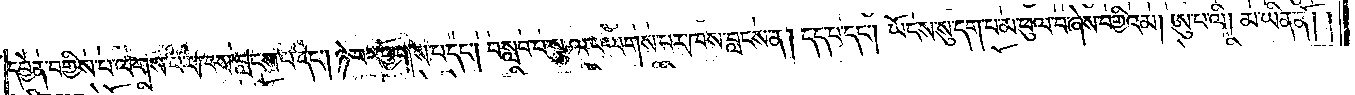དབྱེན་བགྱིས་པ་ལགས་པར་ཁས་བླངས་པ་དང༌། ཉེ་བར་ཕྱོགས་པ་དང༌། བསླབ་པ་སྩལ་པ་ལགས་པར་ཁས་བླངས་ན། དད་པ་དང༌། ཡོངས་སུ་དག་པ་མ་ཕུལ་བ་ཞེས་བགྱིའམ། ཨུ་པ་ལི། མ་ཡིན་ནོ། །
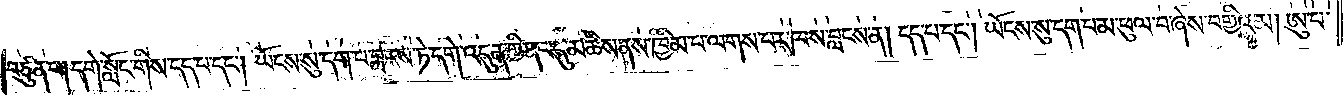བཙུན་པ། དགེ་སློང་གིས་དད་པ་དང༌། ཡོངས་སུ་དག་པ་བླངས་ཏེ་དགེ་འདུན་གྱི་ནང་དུ་མཆིས་ནས་ཁྱིམ་པ་ལགས་པར་ཁས་བླངས་ན། དད་པ་དང༌། ཡོངས་སུ་དག་པ་མ་ཕུལ་བ་ཞེས་བགྱིའམ། ཨུ་པ་
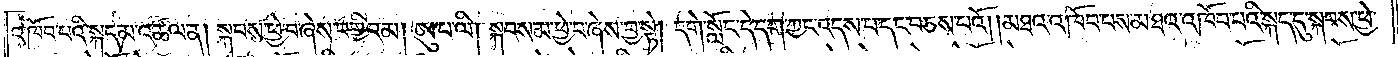འཁོབ་པའི་སྐད་མ་འཚལ་ན། སྐབས་ཕྱེ་བ་ཞེས་བགྱིའམ། ཨུ་པ་ལི། སྐབས་མ་ཕྱེ་བ་ཞེས་བྱ་སྟེ། དགེ་སློང་དེ་དག་ཀྱང་འདས་པ་དང་བཅས་པའོ། །མཐའ་འཁོབ་པས་མཐའ་འཁོབ་པའི་སྐད་དུ་སྐབས་ཕྱེ་
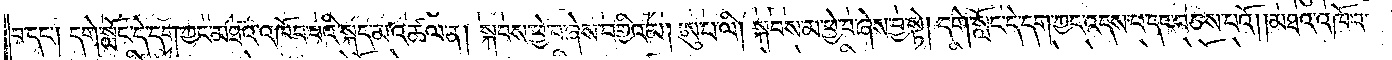བ་དང༌། དགེ་སློང་དེ་དག་ཀྱང་མཐའ་འཁོབ་པའི་སྐད་མ་འཚལ་ན། སྐབས་ཕྱེ་བ་ཞེས་བགྱིའམ། ཨུ་པ་ལི། སྐབས་མ་ཕྱེ་བ་ཞེས་བྱ་སྟེ། དགེ་སློང་དེ་དག་ཀྱང་འདས་པ་དང་བཅས་པའོ། །མཐའ་འཁོབ་
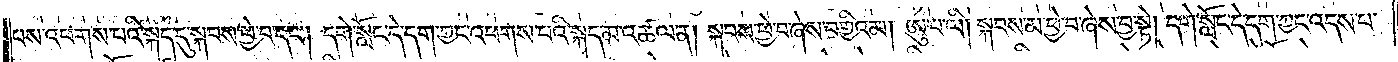པས་འཕགས་པའི་སྐད་དུ་སྐབས་ཕྱེ་བ་དང༌། དགེ་སློང་དེ་དག་ཀྱང་འཕགས་པའི་སྐད་མ་འཚལ་ན། སྐབས་ཕྱེ་བ་ཞེས་བགྱིའམ། ཨུ་པ་ལི། སྐབས་མ་ཕྱེ་བ་ཞེས་བྱ་སྟེ། དགེ་སློང་དེ་དག་ཀྱང་འདས་པ་
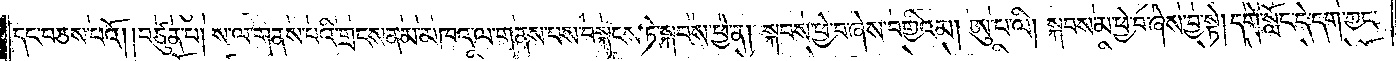དང་བཅས་པའོ། །བཙུན་པ། ས་ལ་གནས་པའི་གྲངས་ནམ་མཁའ་ལ་གནས་པས་བསྐངས་ཏེ་སྐབས་ཕྱེ་ན། སྐབས་ཕྱེ་བ་ཞེས་བགྱིའམ། ཨུ་པ་ལི། སྐབས་མ་ཕྱེ་བ་ཞེས་བྱ་སྟེ། དགེ་སློང་དེ་དག་ཀྱང་
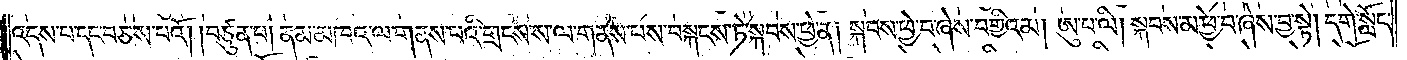འདས་པ་དང་བཅས་པའོ། །བཙུན་པ། ནམ་མཁའ་ལ་གནས་པའི་གྲངས་ལ་གནས་པས་བསྐངས་ཏེ་སྐབས་ཕྱེ་ན། སྐབས་ཕྱེ་བ་ཞེས་བགྱིའམ། ཨུ་པ་ལི། སྐབས་མ་ཕྱེ་བ་ཞེས་བྱ་སྟེ། དགེ་སློང་
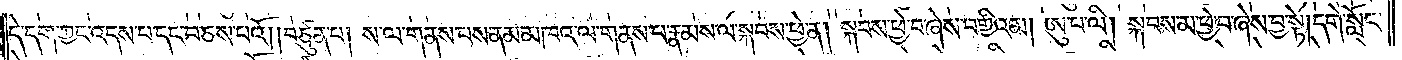དེ་དག་ཀྱང་འདས་པ་དང་བཅས་པའོ། །བཙུན་པ། ས་ལ་གནས་པས་ནམ་མཁའ་ལ་གནས་པ་རྣམས་ལ་སྐབས་ཕྱེ་ན། སྐབས་ཕྱེ་བ་ཞེས་བགྱིའམ། ཨུ་པ་ལི། སྐབས་མ་ཕྱེ་བ་ཞེས་བྱ་སྟེ། དགེ་སློང་
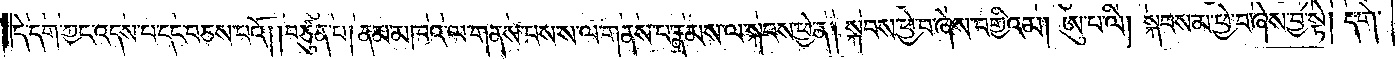དེ་དག་ཀྱང་འདས་པ་དང་བཅས་པའོ། །བཙུན་པ། ནམ་མཁའ་ལ་གནས་པས་ས་ལ་གནས་པ་རྣམས་ལ་སྐབས་ཕྱེ་ན། སྐབས་ཕྱེ་བ་ཞེས་བགྱིའམ། ཨུ་པ་ལི། སྐབས་མ་ཕྱེ་བ་ཞེས་བྱ་སྟེ། དགེ་
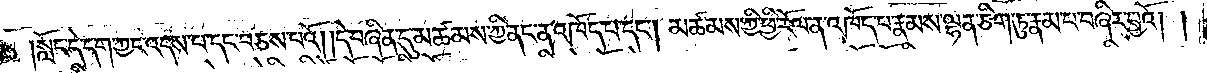།སློང་དེ་དག་ཀྱང་འདས་པ་དང་བཅས་པའོ། །དེ་བཞིན་དུ་མཚམས་ཀྱི་ནང་ན་འཁོད་པ་དང༌། མཚམས་ཀྱི་ཕྱི་རོལ་ན་འཁོད་པ་རྣམས་ལྷན་ཅིག་ཏུ་རྣམ་པ་བཞིར་བྱའོ། །
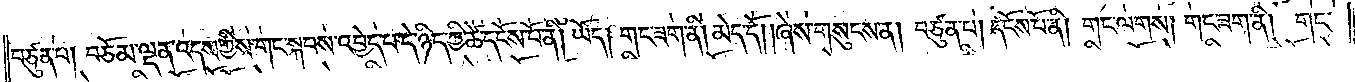བཙུན་པ། བཅོམ་ལྡན་འདས་ཀྱིས་གང་སྐབས་འབྱེད་པ་དེ་ཉིད་ཀྱི་ཚེ་དངོས་པོ་ནི། ཡོད། གང་ཟག་ནི། མེད་དོ། །ཞེས་གསུངས་ན། བཙུན་པ། དངོས་པོ་ནི། གང་ལགས། གང་ཟག་ནི། གང་
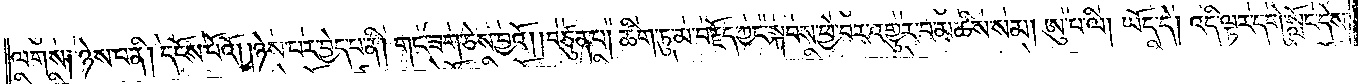ལགས༑ ཉེས་པ་ནི། དངོས་པོའོ། །ཉེས་པར་བྱེད་པ་ནི། གང་ཟག་ཅེས་བྱའོ། །བཙུན་པ། ཚིག་ཏུ་མ་བརྗོད་ཀྱང་སྐབས་ཕྱེ་བར་འགྱུར་བ་མཆིས་སམ། ཨུ་པ་ལི། ཡོད་དེ། འདི་ལྟར་དགེ་སློང་དེས་
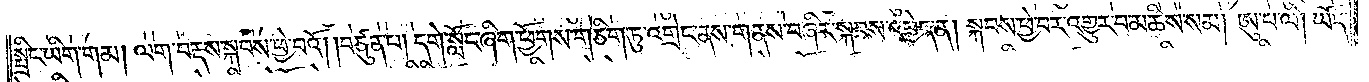སྤྲིང་ཡིག་གམ། ལག་བརྡས་སྐབས་ཕྱེ་བའོ། །བཙུན་པ། དགེ་སློང་ཞིག་ཕྱོགས་གཅིག་ཏུ་འགྲེང་ནས་གནས་བཞིར་སྐབས་འབྱེད་ན། སྐབས་ཕྱེ་བར་འགྱུར་བ་མཆིས་སམ། ཨུ་པ་ལི། ཡོད་
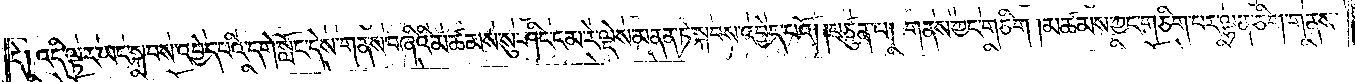དེ། འདི་ལྟར་ཡང་སྐབས་འབྱེད་པའི་དགེ་སློང་དེས་གནས་བཞིའི་མཚམས་སུ་ཤིང་ངམ་རེ་ལྡེས་མནན་ཏེ་སྐབས་འབྱེད་པའོ། །བཙུན་པ། གནས་ཀྱང་གཅིག །མཚམས་ཀྱང་གཅིག་པར་ལྷན་ཅིག་གནས་
